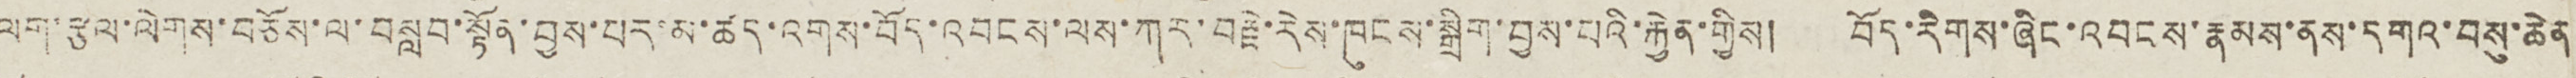ལག་རྩལ་ལེགས་བཅོས་ལ་བསླབ་སྟོན་བྱས་པར་མ་ཚད་འགས་བོད་འབངས་ལས་ཀར་བརྗེ་རེས་ཁུངས་སྒྲིག་བྱས་པའི་རྐྱེན་གྱིས། བོད་རིགས་ཞིང་འབངས་རྣམས་ནས་དགའ་བསུ་ཆེན
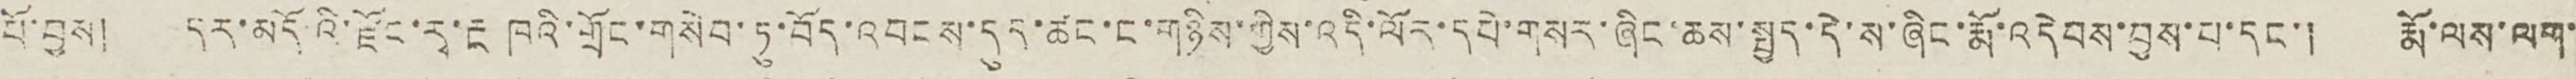པོ་བྱས། དར་མདོའི་རྫོང་རྭ་རྔ ཁའི་གྲོང་གསེབ་ཏུ་བོད་འབངས་དུད་ཚང་ང་གཉིས་ཀྱིས་འདི་ལོར་དཔེ་གསར་ཞིང་ཆས་སྤྱད་དེ་ས་ཞིང་རྨོ་འདེབས་བྱས་པ་དང་། རྨོ་ལས་ལག་
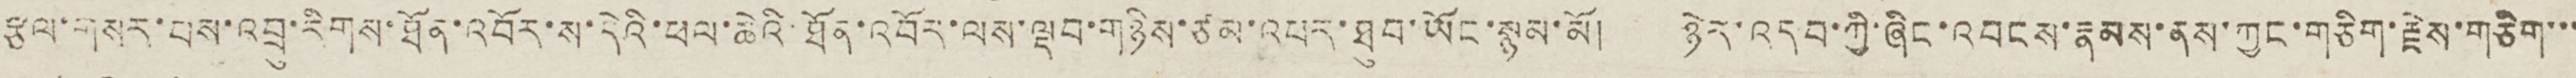རྩལ་གསར་པས་འབྲུ་རིགས་ཐོན་འབོར་ས་དེའི་ཕལ་ཆེའི་ཐོན་འབོར་ལས་ལྡབ་གཉིས་ཙམ་འཕར་ཐུབ་ཡོང་སྙམ་མོ། ཉེར་འདབ་ཀྱི་ཞིང་འབངས་རྣམས་ནས་ཀྱང་གཅིག་རྗེས་གཅིག་་་
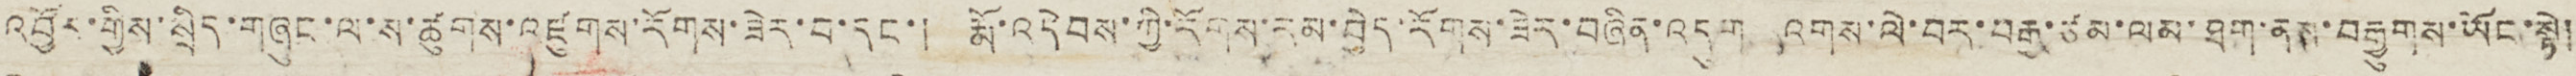འབྱོར་གྱིས་སྲིད་གཞུང་ལ་ས་ཚུགས་འཛུགས་རོགས་ཟེར་བ་དང་། རྨོ་འདེབས་ཀྱི་རོགས་རམ་བྱེད་རོགས་ཟེར་བཞིན་འདུག འགས་ལེ་བར་བརྒྱ་ཙམ་ལམ་ཐག་ནས་བརྒྱུགས་ཡོང་སྟེ།
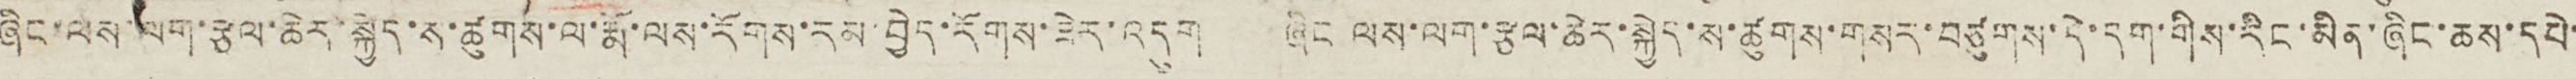ཞིང་ལས་ལག་རྩལ་ཆེར་སྐྱེད་ས་ཚུགས་ལ་རྨོ་ལས་རོགས་རམ་བྱེད་རོགས་ཟེར་འདུག ཞིང ལས་ལག་རྩལ་ཆེར་སྐྱེད་ས་ཚུགས་གསར་བཙུགས་དེ་དག་གིས་རིང་མིན་ཞིང་ཆས་དཔེ་
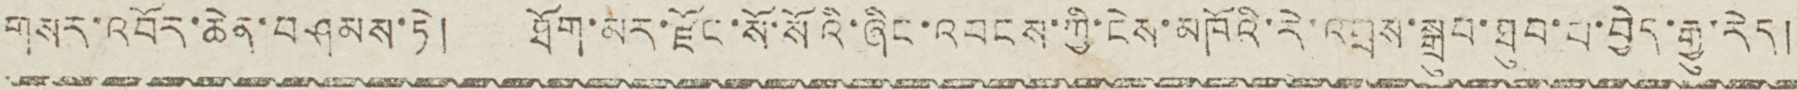གསར་འབོར་ཆེན་བཤམས་ཏེ། ཐོག་མར་རྫོང་སོ་སོའི་ཞིང་འབངས་ཀྱི་ངེས་མཁོའི་རེ་འབྲས་སྒྲུབ་ཐུབ་པ་བྱེད་རྒྱུ་རེད།
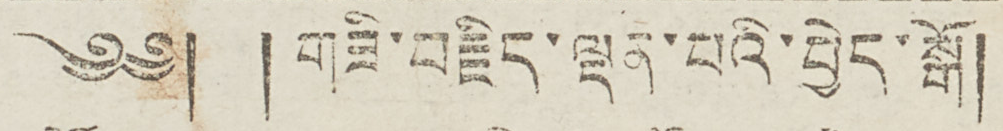༄༅། ། གཟི་བརྗོད་ལྡན་པའི་བྱེད་སྒོ།
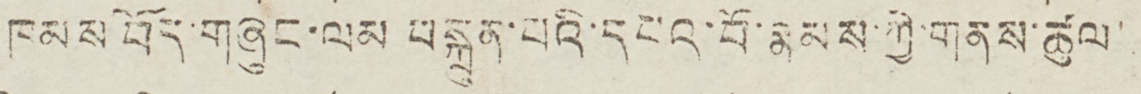ཁམས བོད་གཞུང་ལམ བསྐྲུན་པའི་དཔའ་བོ་རྣམས་ཀྱི་གནས་ཚུལ་
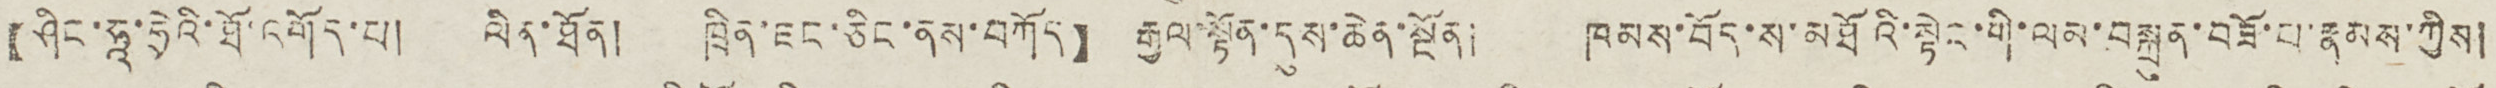【ཤིང་ཧཱ་ཧྲེའི་ཐོ་འགོད་པ། ལིན་ཐོན། ཁྲིན་ཇང་ཅིང་ནས་བཀོད】 རྒྱལ་སྟོན་དུས་ཆེན་སྔོན། ཁམས་བོད་ས་མཐོའི་སྟེང་གི་ལམ་བསྐྲུན་བཟོ་པ་རྣམས་ཀྱིས།
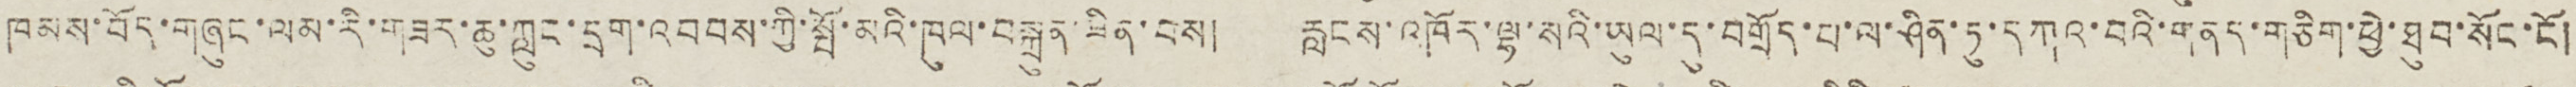ཁམས་བོད་གཞུང་ལམ་རི་གཟར་ཆུ་ཀླུང་དྲག་འབབས་ཀྱི་སྤོ་མའི་ཁུལ་བསྐྲུན་ཟིན་བས། རླངས་འཁོར་ལྷ་སའི་ཡུལ་དུ་བགྲོད་པ་ལ་ཤིན་ཏུ་དཀའ་བའི་གནད་གཅིག་ཕྱེ་ཐུབ་སོང་ངོ །
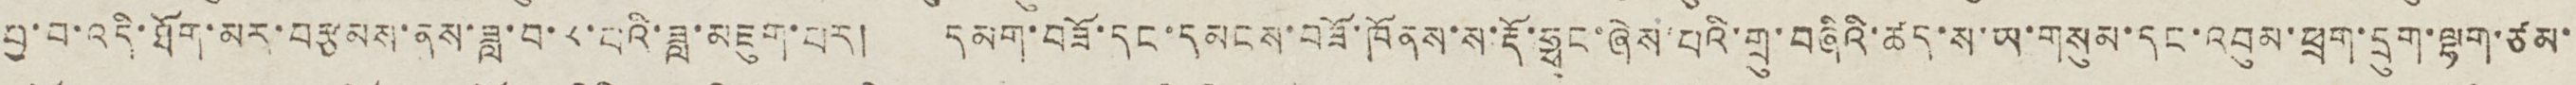བྱ་བ་འདི་ཐོག་མར་བརྩམས་ནས་ཟླ་བ་༨་པའི་ཟླ་མཇུག་པར། དམག་བཟོ་དང་དམངས་བཟོ་དང་དམངས་བཟོ་ཁོ ནས་ས་རྡོ་ཧྥང་ཞེས་པའི་གྲུ་བཞིའི་ཚད་ས་ཡ་གསུམ་དང་འབུམ་ཕྲག་དྲུག་ལྷག་ཙམ་
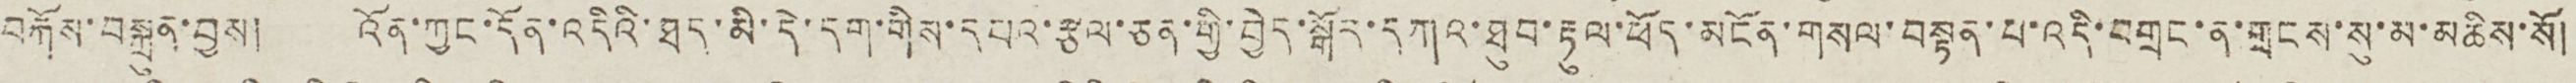བརྐོས་བསྐྲུན་བྱས། འོན་ཀྱང་དོན་འདིའི་ཐད་མི་དེ་དག་གིས་དཔའ་རྩལ་ཅན་གྱི་བྱེད་སྒོར་དཀའ་ཐུབ་རྟུལ་ཕོད་མངོན་གསལ་བསྟན་པ་འདི་བགྲང་ན་གྲངས་སུ་མ་མཆིས་སོ།
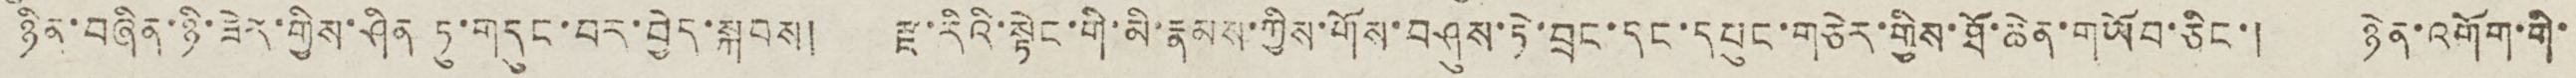ཉིན་བཞིན་ཉི་ཟེར་གྱིས་ཤིན ཏུ་གདུང་བར་བྱེད་སྐབས། རྫ་རིའི་སྟེང་གི་མི་རྣམས་ཀྱིས་གོས་བཤུས་ཏེ་བྲང་དང་དཔུང་གཅེར་གྱིས་ཐོ་ཆེན་གཡོབ་ཅིང་། ཉེན་འགོག་གི་
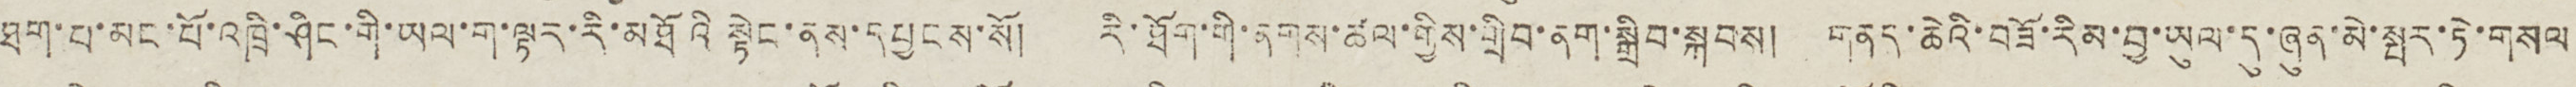ཐག་པ་མང་པོ་འཁྲི་ཤིང་གི་ཡལ་ག་ལྟར་རི་མཐོའི སྟེང་ནས་དཔྱངས་སོ། རི་ཐོག་གི་ནགས་ཚལ་གྱིས་གྲིབ་ནག་སྒྲིབ་སྐབས། གནད་ཆེའི་བཟོ་རིམ་བྱ་ཡུལ་དུ་ཞུན་མེ་སྤར་ཏེ་གསལ
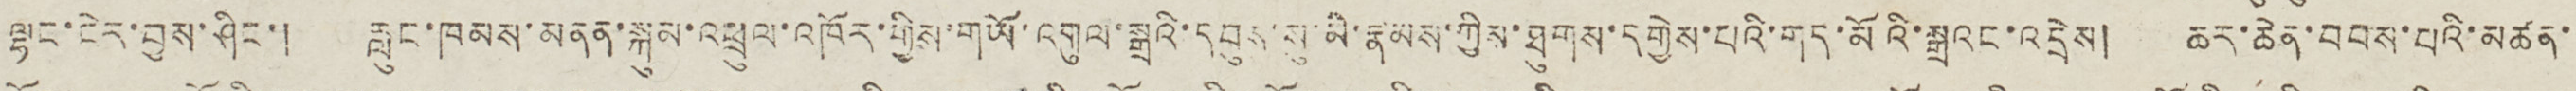ལྷང་ངེར་བྱས་ཤིང་། རླུང་ཁམས་མནན་སྐུམ་འཕྲུལ་འཁོར་གྱིས་གཡོ་འགུལ་སྒྲའི་དབུས་སུ་མི་རྣམས་ཀྱིས་ཐུགས་དགྱེས་པའི་གད་མོའི་སྒྲའང་འདྲེས། ཆར་ཆེན་བབས་པའི་མཚན་
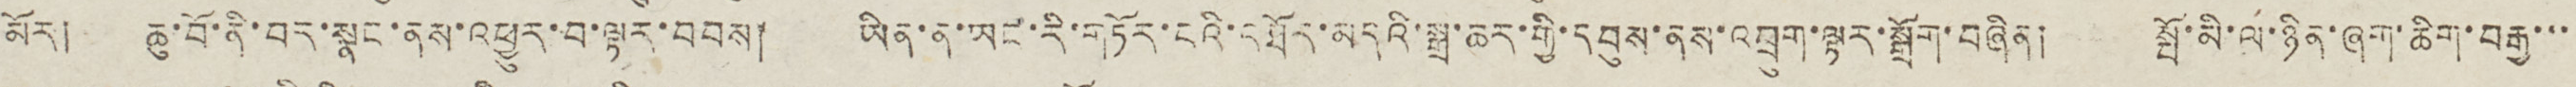མོར། ཆུ་བོ་ནི་བར་སྣང་ནས་འཕྱུར་བ་ལྟར་བབས། ཡིན་ན་ཡང་རི་གཏོར་ངའི་དཐོར་མདའི་སྒྲ་ཆར་གྱི་དབུས་ནས་འབྲུག་ལྟར་སྒྲོག་བཞིན། སྤོ་མི་ལ་ཉིན་ཞག་ཆིག་བརྒྱ་་་
